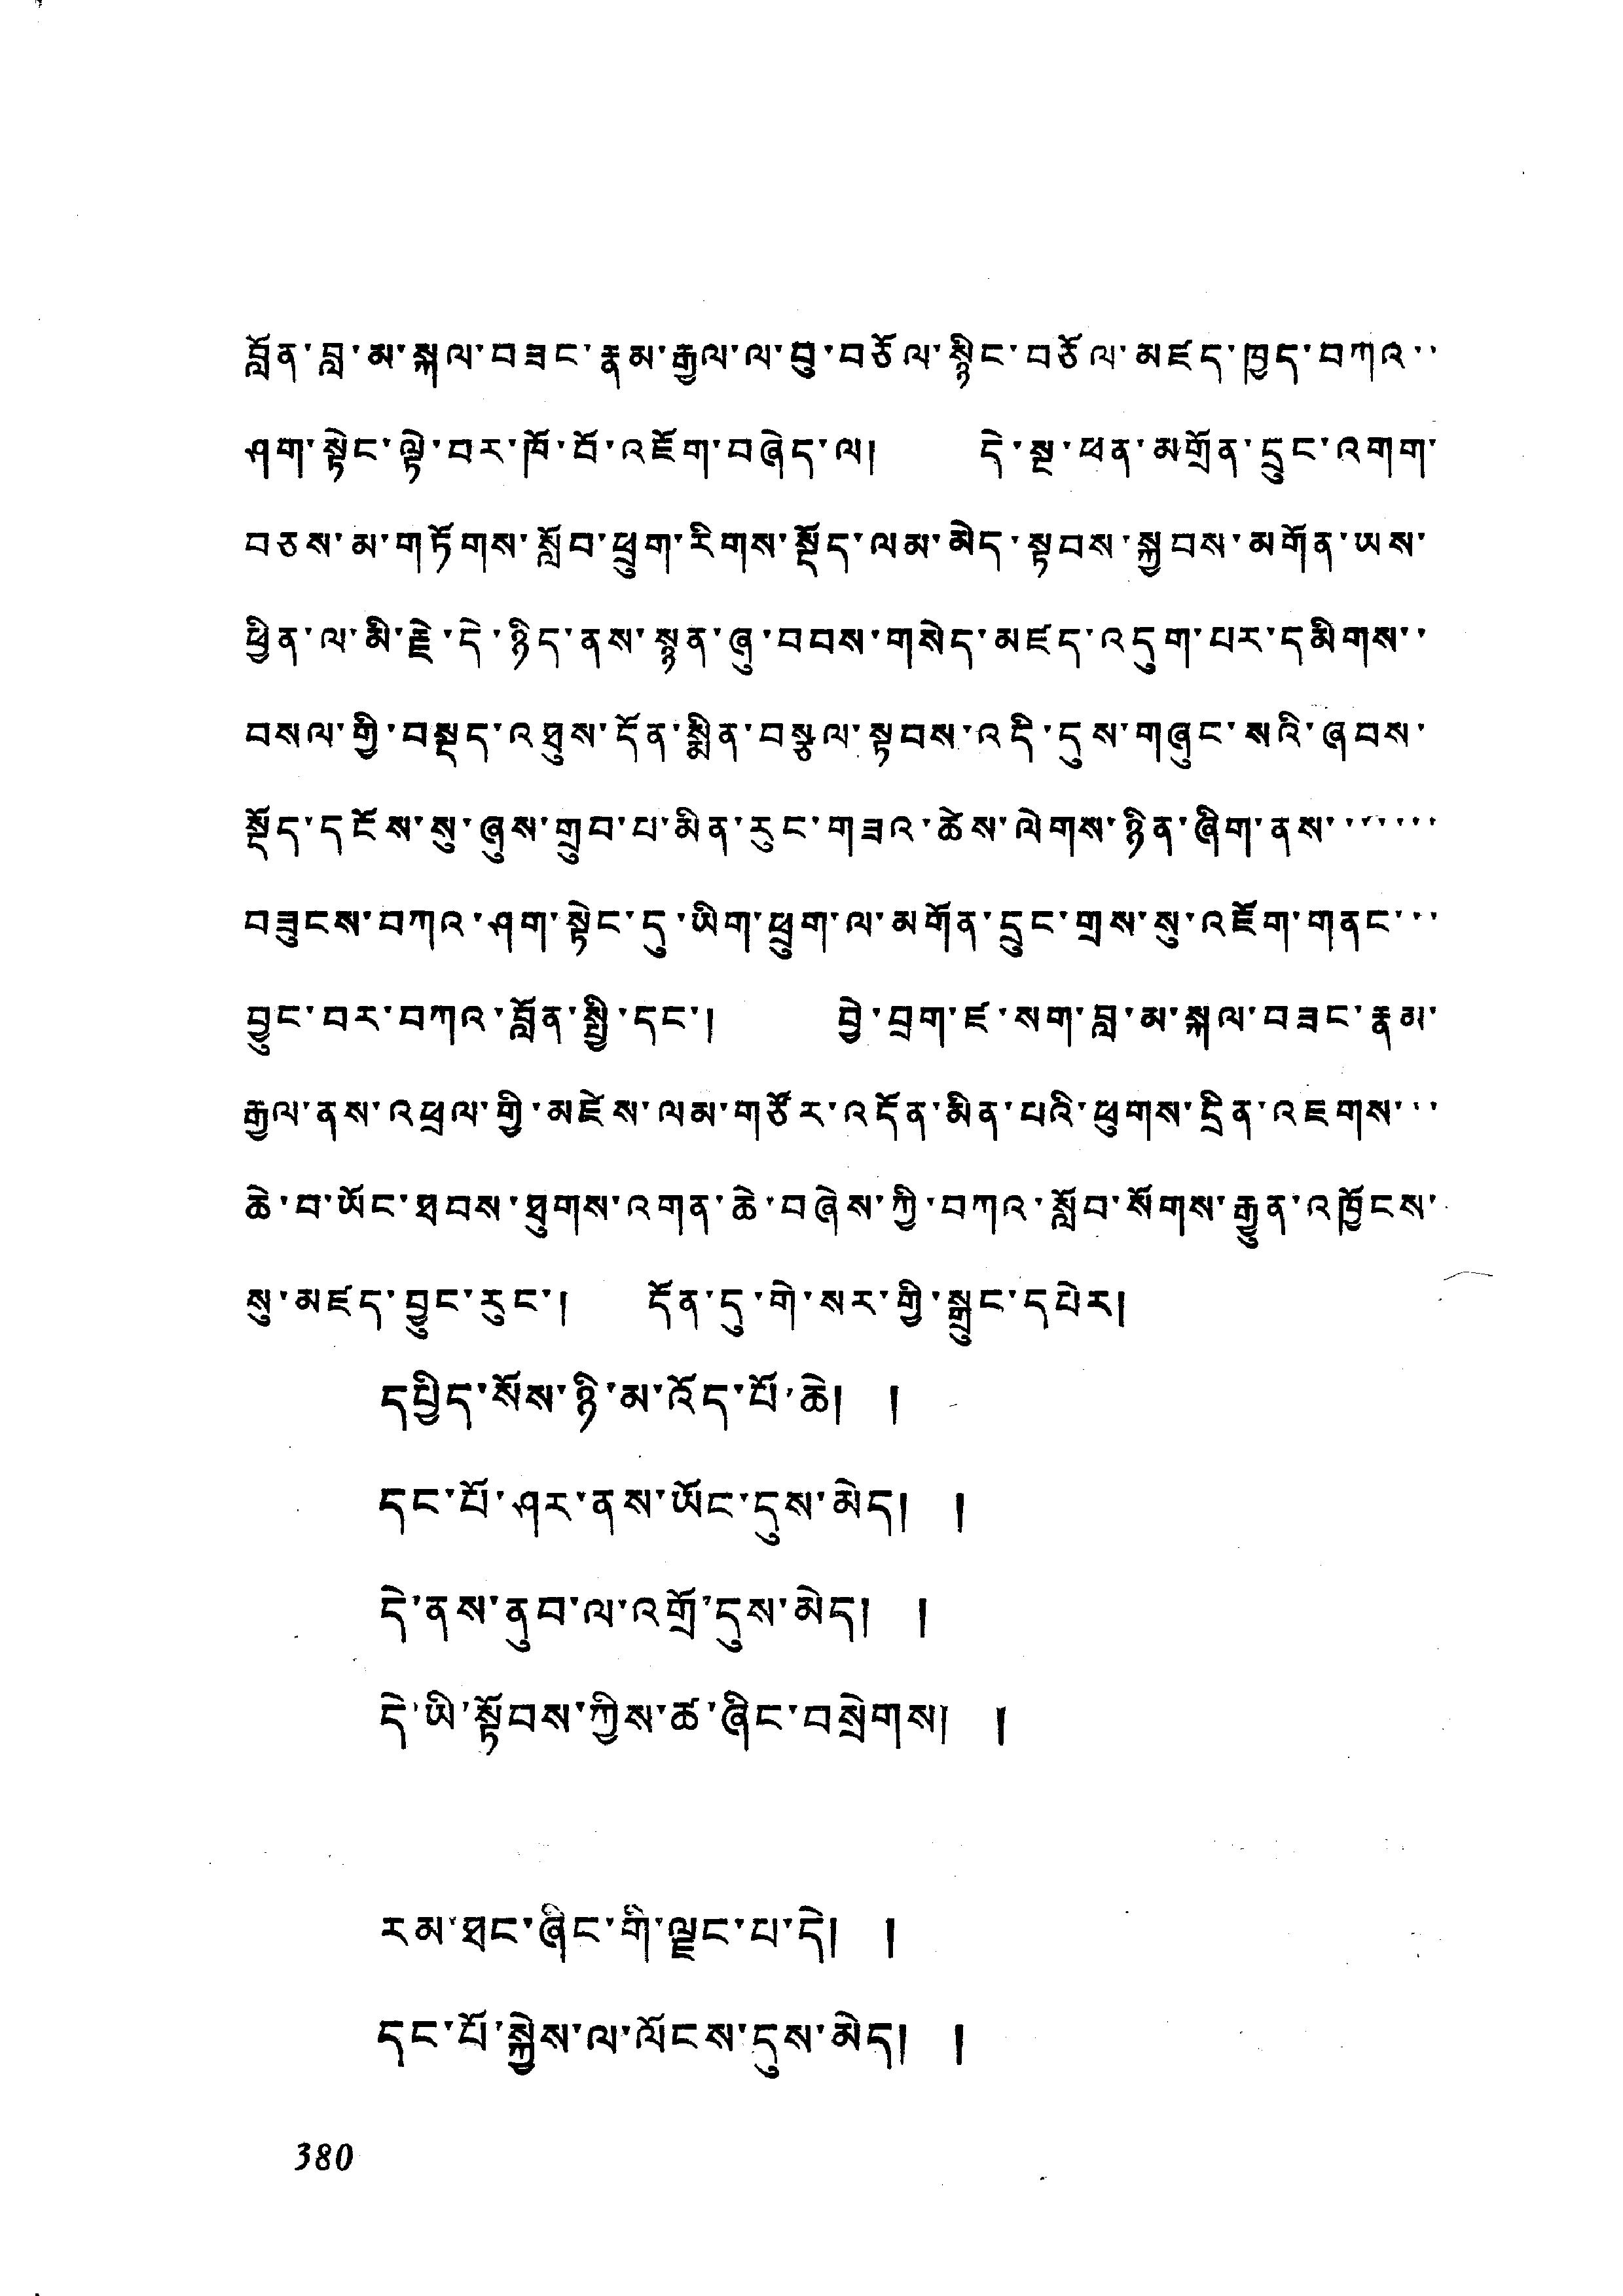བློན་བླ་མ་སྐལ་བཟང་རྣམ་རྒྱལ་ལ་བུ་བཅོལ་སྙིང་བཅོལ་མཛད་ཁྱད་བཀའ་
ཤག་སྟེང་ལྟེ་བར་ཁོ་བོ་འཇོག་བཞེད་ལ། དེ་སྔ་ཕན་མགྲོན་དྲུང་འགག་
བཅས་མ་གཏོགས་སློབ་ཕྲུག་རིགས་སྡོད་ལམ་མེད་སྟབས་སྐྱབས་མགོན་ཡས་
ཕྱིན་ལ་མི་རྗེ་དེ་ཉིད་ནས་སྙན་ཞུ་བབས་གསེད་མཛད་འདུག་པར་དམིགས་་
བསལ་གྱི་བསྡད་འཐུས་དོན་སྨིན་བསྩལ་སྟབས་འདི་དུས་གཞུང་སའི་ཞབས་
སྡོད་དངོས་སུ་ཞུས་གྲུབ་པ་མིན་རུང་གཟའ་ཚེས་ལེགས་ཉིན་ཞིག་ནས་་་་་་་
བཟུངས་བཀའ་ཤག་སྟེང་དུ་ཡིག་ཕྲུག་ལ་མགོན་དྲུང་གྲས་སུ་འཇོག་གནང་་་
བྱུང་བར་བཀའ་བློན་སྤྱི་དང་། བྱེ་བྲག་ཛ་སག་བླ་མ་སྐལ་བཟང་རྣམ་
རྒྱལ་ནས་འཕྲལ་གྱི་མཛེས་ལམ་གཙོར་འདོན་མིན་པའི་ཕུགས་དྲིན་འཇགས་་་
ཆེ་བ་ཡོང་ཐབས་ཐུགས་འགན་ཆེ་བཞེས་ཀྱི་བཀའ་སློབ་སོགས་རྒྱུན་འཁྱོངས་
སུ་མཛད་བྱུང་རུང་། དོན་དུ་གེ་སར་གྱི་སྒྲུང་དཔེར།
དཔྱིད་སོས་ཉི་མ་འོད་པོ་ཆེ། །
དང་པོ་ཤར་ནས་ཡོང་དུས་མེད། །
དེ་ནས་ནུབ་ལ་འགྲོ་དུས་མེད། །
དེ་ཡི་སྟོབས་ཀྱིས་ཚ་ཞིང་བསྲེགས། །
རམ་ཐང་ཞིང་གི་ལྗང་པ་དེ། །
དང་པོ་སྐྱེས་ལ་ལོངས་དུས་མེད། །
380
